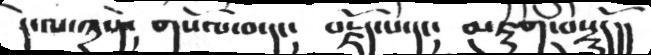དེ་ལ་༣་སྟེ།  གསོལ་བ་དང།  བརྗོད་པ་དང།  མཇུག་བསྡུདོ།།
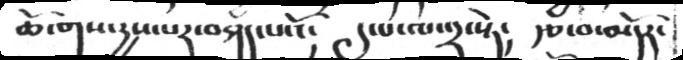ཆོ་གས་རྱས་པར་བཤད་པའོ། དུ་པ་ལ་༢་སྟེ། རྩ་བ་མདོར་
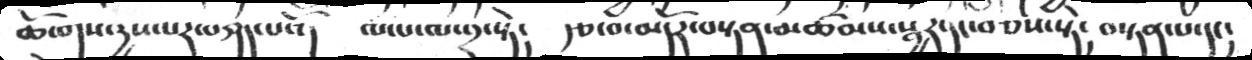ཆོ་གས་རྱས་པར་བཤད་པའོ། ལ་པ་ལ་༢་སྟེ། རྩ་བ་མདོར་བསྟན་མཚམས་སྦྱར་དང་བཅས་སྟེ། བསྟན་པ་དང།
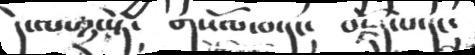དེ་ལ་༣་སྟེ། གསོལ་བ་དང། བརྗོད་པ་དང།
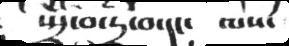སྤྲོ་བ་རུ་བ་དང་ ལས་
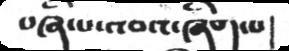བཞི་པ་འབའ་ཞིག་པ
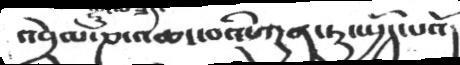འབྲེལ་ཎ་འཆང་བའི་ཀུན་ཏུ་སྤྱོད་པའོ།
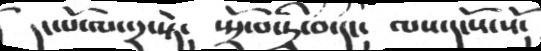དང་པོ་ལ་༢་སྟེ། སྤྲོ་བ་དྲི་བ་དང། ལས་དངོས་སོ།
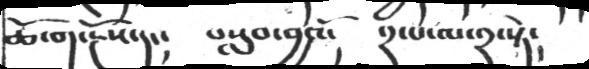ཆོ་ག་རྔོས་དང། བསླབ་བྱའོ། ༢་པ་ལ་༢་སྟེ།
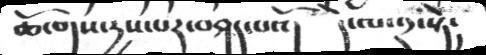ཆོ་གས་རྱས་པར་བཤད་པའོ། དེ་ལ་༢་སྟེ།
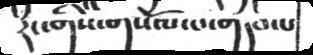རིང་གིས་གསོལ་པ་གདབ་པ
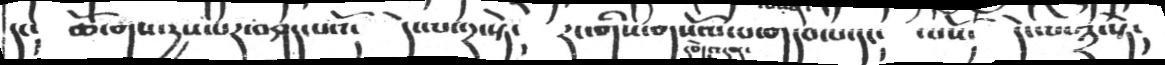དང།    ཆོ་གས་རྱས་པར་བཤད་པའོ།   དེ་ལ་༢་སྟེ།    རང་གིས་གསོལ་བ་གདབ་པ་དང།  ་བསོ།    དེ་ལ་༣་སྟེ།
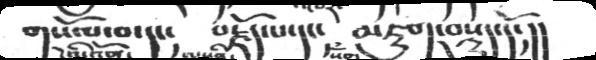གསོལ་བ་དང།     བརྗོད་པ་དང་   མཇུག་བསྡུད་དོ་།།
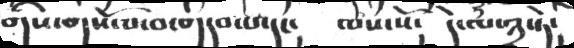གིས་གསོལ་བ་གདབ་པ་དང། ལས་སོ། དེ་ལ་༣སྟེ།
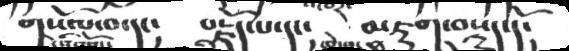གསོལ་བ་དང།    བརྗོད་པ་དང།    མཇུག་བསྡུད་དོ།
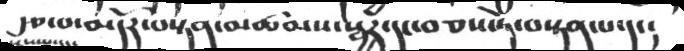རྩ་པ་མདོར་་བསྟན་མཚམས་སྦྱར་དང་བཅས་ཏེ་བསྟན་པ་དང༴
